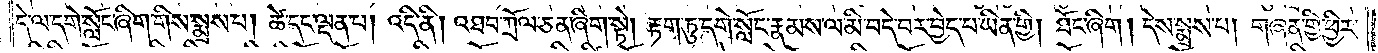དེ་ལ་དགེ་སློང་ཞིག་གིས་སྨྲས་པ། ཚེ་དང་ལྡན་པ། འདི་ནི། འཐབ་ཀྲོལ་ཅན་ཞིག་སྟེ། རྟག་ཏུ་དགེ་སློང་རྣམས་ལ་མི་བདེ་བར་བྱེད་པ་ཡིན་གྱི། ཐོང་ཞིག། དེས་སྨྲས་པ། གཞན་གྱི་ཕྱིར་
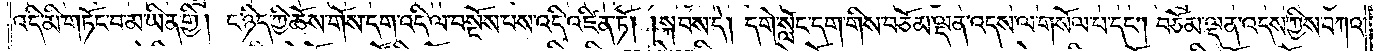འདི་མི་གཏོང་བ་མ་ཡིན་གྱི། ང་ཉིད་ཀྱི་ཆོས་གོས་དག་འདི་ལ་བསྔོས་པས་འདི་འཛིན་ཏོ། །སྐབས་དེ། དགེ་སློང་དག་གིས་བཅོམ་ལྡན་འདས་ལ་གསོལ་པ་དང༌། བཅོམ་ལྡན་འདས་ཀྱིས་བཀའ་
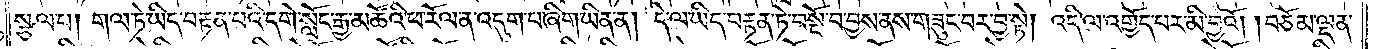སྩལ་པ། གལ་ཏེ་ཡིད་བརྟན་པའི་དགེ་སློང་རྒྱ་མཚོའི་ཕ་རོལ་ན་འདུག་པ་ཞིག་ཡིན་ན། དེ་ལ་ཡིད་བརྟན་ཏེ་བསྔོ་བ་བྱས་ནས་གཟུང་བར་བྱ་སྟེ། འདི་ལ་འགྱོད་པར་མི་བྱའོ། །བཅོམ་ལྡན་
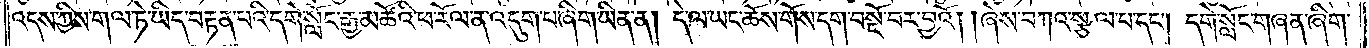འདས་ཀྱིས་གལ་ཏེ་ཡིད་བརྟན་པའི་དགེ་སློང་རྒྱ་མཚོའི་ཕ་རོལ་ན་འདུག་པ་ཞིག་ཡིན་ན། དེ་ལ་ཡང་ཆོས་གོས་དག་བསྔོ་བར་བྱའོ། །ཞེས་བཀའ་སྩལ་པ་དང༌། དགེ་སློང་གཞན་ཞིག་
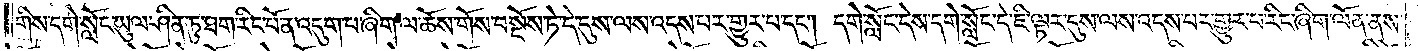གིས་དགེ་སློང་ཡུལ་ཤིན་ཏུ་ཐག་རིང་པོ་ན་འདུག་པ་ཞིག་ལ་ཆོས་གོས་བསྔོས་ཏེ་དེ་དུས་ལས་འདས་པར་གྱུར་པ་དང༌། དགེ་སློང་དེས་དགེ་སློང་དེ་ཇི་ལྟར་དུས་ལས་འདས་པར་རིང་ཞིག་ལོན་ནས་
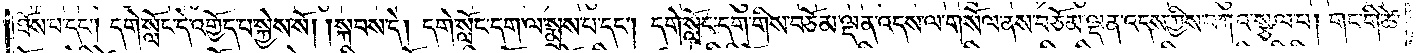ཐོས་པ་དང༌། དགེ་སློང་དེ་འགྱོད་པ་སྐྱེས་སོ། །སྐབས་དེ། དགེ་སློང་དག་ལ་སྨྲས་པ་དང༌། དགེ་སློང་དག་གིས་བཅོམ་ལྡན་འདས་ལ་གསོལ་ནས་བཅོམ་ལྡན་འདས་ཀྱིས་བཀའ་སྩལ་པ། གང་གི་ཚེ་
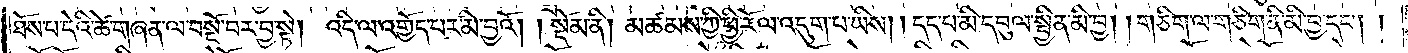ཐོས་པ་དེའི་ཚེ་གཞན་ལ་བསྔོ་བར་བྱ་སྟེ། འདི་ལ་འགྱོད་པར་མི་བྱའོ།    །སྡོམ་ནི། མཚམས་ཀྱི་ཕྱི་རོལ་འདུག་པ་ཡིས། །དད་པ་མི་དབུལ་སྦྱིན་མི་བྱ། །གཅིག་ལ་གཅིག་ནི་མི་བྱ་དང༌། །
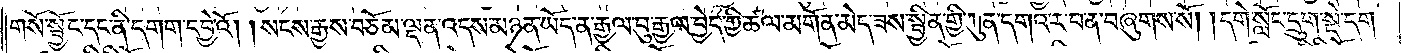གསོ་སྦྱོང་དང་ནི་དགག་དབྱེའོ། །སངས་རྒྱས་བཅོམ་ལྡན་འདས་མཉན་ཡོད་ན་རྒྱལ་བུ་རྒྱལ་བྱེད་ཀྱི་ཚལ་མགོན་མེད་ཟས་སྦྱིན་གྱི་ཀུན་དགའ་ར་བ་ན་བཞུགས་སོ། །དགེ་སློང་དྲུག་སྡེ་དག་
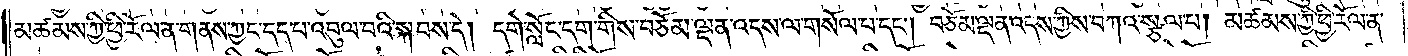མཚམས་ཀྱི་ཕྱི་རོལ་ན་གནས་ཀྱང་དད་པ་འབུལ་བའི་སྐབས་དེ། དགེ་སློང་དག་གིས་བཅོམ་ལྡན་འདས་ལ་གསོལ་པ་དང༌། བཅོམ་ལྡན་འདས་ཀྱིས་བཀའ་སྩལ་པ། མཚམས་ཀྱི་ཕྱི་རོལ་ན་
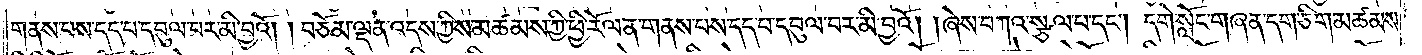གནས་པས་དད་པ་དབུལ་བར་མི་བྱའོ། །བཅོམ་ལྡན་འདས་ཀྱིས་མཚམས་ཀྱི་ཕྱི་རོལ་ན་གནས་པས་དད་པ་དབུལ་བར་མི་བྱའོ། །ཞེས་བཀའ་སྩལ་པ་དང༌། དགེ་སློང་གཞན་དག་ཅིག་མཚམས་
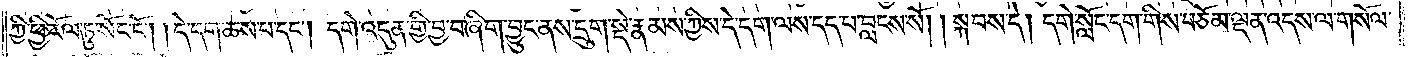ཀྱི་ཕྱི་རོལ་ཏུ་སོང་ངོ༌། །དེ་དག་ཆས་པ་དང༌། དགེ་འདུན་གྱི་བྱ་བ་ཞིག་བྱུང་ནས་དྲུག་སྡེ་རྣམས་ཀྱིས་དེ་དག་ལས་དད་པ་བླངས་སོ། །སྐབས་དེ། དགེ་སློང་དག་གིས་བཅོམ་ལྡན་འདས་ལ་གསོལ་
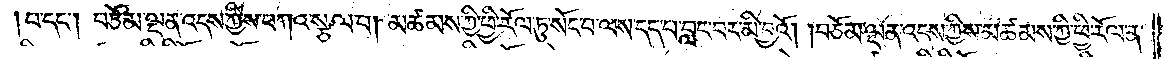པ་དང༌། བཅོམ་ལྡན་འདས་ཀྱིས་བཀའ་སྩལ་པ། མཚམས་ཀྱི་ཕྱི་རོལ་ཏུ་སོང་བ་ལས་དད་པ་བླང་བར་མི་བྱའོ། །བཅོམ་ལྡན་འདས་ཀྱིས་མཚམས་ཀྱི་ཕྱི་རོལ་ན་
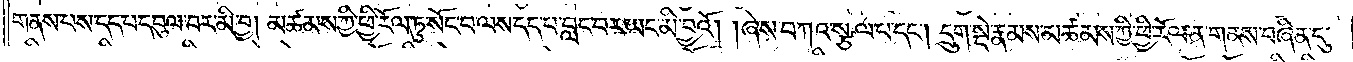གནས་པས་དད་པ་དབུལ་བར་མི་བྱ། མཚམས་ཀྱི་ཕྱི་རོལ་ཏུ་སོང་བ་ལས་དད་པ་བླང་བར་ཡང་མི་བྱའོ། །ཞེས་བཀའ་སྩལ་པ་དང༌། དྲུག་སྡེ་རྣམས་མཚམས་ཀྱི་ཕྱི་རོལ་ན་གནས་བཞིན་དུ་
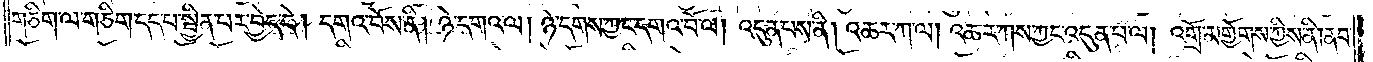གཅིག་ལ་གཅིག་དད་པ་སྦྱིན་པར་བྱེད་དེ། དགའ་བོས་ནི། ཉེ་དགའ་ལ། ཉེ་དགས་ཀྱང་དགའ་བོ་ལ། འདུན་པས་ནི། འཆར་ཀ་ལ། འཆར་ཀས་ཀྱང་འདུན་པ་ལ། འགྲོ་མགྱོགས་ཀྱིས་ནི། ནབ་
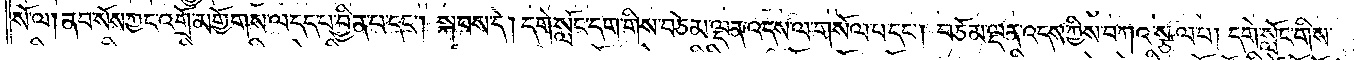སོ་ལ། ནབ་སོས་ཀྱང་འགྲོ་མགྱོགས་ལ་དད་པ་བྱིན་པ་དང༌། སྐབས་དེ། དགེ་སློང་དག་གིས་བཅོམ་ལྡན་འདས་ལ་གསོལ་པ་དང༌། བཅོམ་ལྡན་འདས་ཀྱིས་བཀའ་སྩལ་པ། དགེ་སློང་གིས་
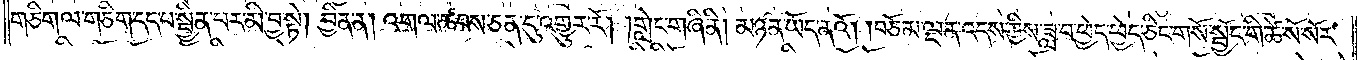གཅིག་ལ་གཅིག་དད་པ་སྦྱིན་པར་མི་བྱ་སྟེ། བྱིན་ན། འགལ་ཚབས་ཅན་དུ་འགྱུར་རོ། །གླེང་གཞི་ནི། མཉན་ཡོད་ནའོ། །བཅོམ་ལྡན་འདས་ཀྱིས་ཟླ་བ་ཕྱེད་ཕྱེད་ཅིང་གསོ་སྦྱོང་གི་ཚེ་སོ་སོར་
